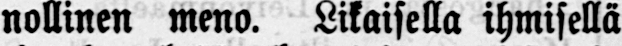nollinen meno. Likaisella ihmisellä
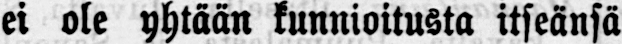ei ole yhtään kunnioitusta itseänsä
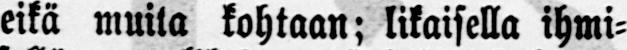eikä muita kohtaan; likaisella ihmi-
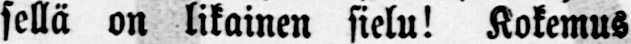sellä on likainen sielu! Kokemus
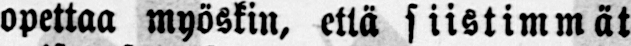opettaa myöskin, että siistimmät
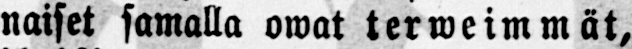naiset samalla owat terweimmät,
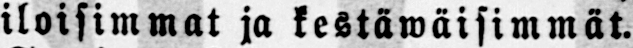iloisimmat ja kestäwäisimmät.
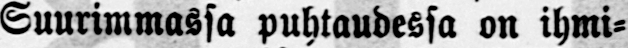Suurimmassa puhtaudessa on ihmi-
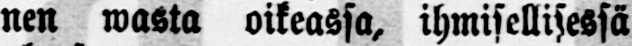nen wasta oikeassa, ihmisellisessä
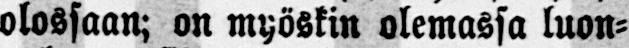olossaan; on myöskin olemassa luon-
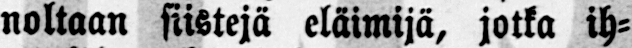noltaan siistejä eläimijä, jotka ih-
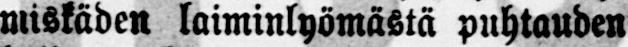miskäden laiminlyömästä puhtauden
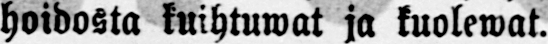hoidosta kuihtuwat ja kuolewat.
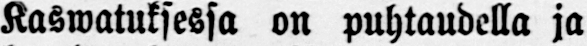Kaswatuksessa on puhtaudella ja
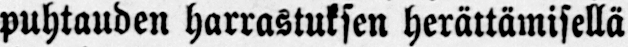puhtauden harrastuksen herättämisellä
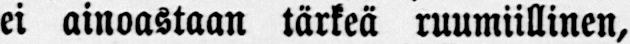ei ainoastaan tärkeä ruumiillinen,
